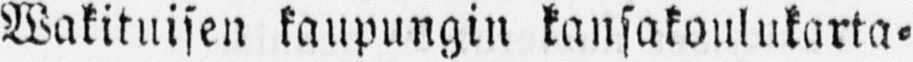Wakituisen kaupungin kansakoulukarta-
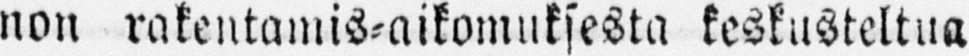non rakentamis-aikomuksesta keskusteltua
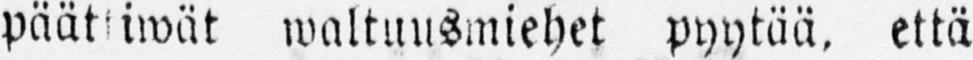päättiwät waltuusmiehet pyytää, että
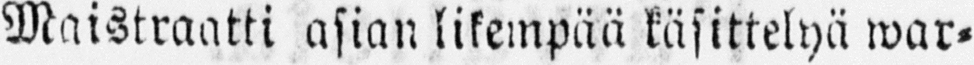Maistraatti asian likempää käsittelyä war-
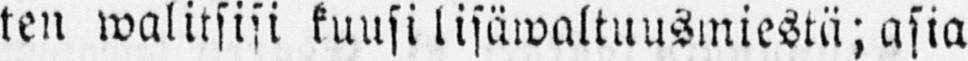ten walitsisi kuusi lisäwaltuusmiestä; asia
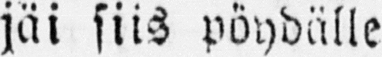jäi siis pöydälle.
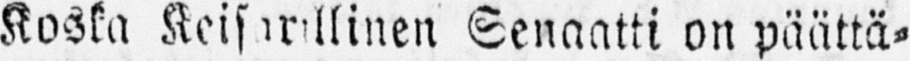Koska Keisarillinen Senaatti on päättä-
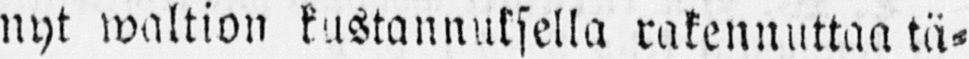nyt waltion kustannuksella rakennuttaa tä-
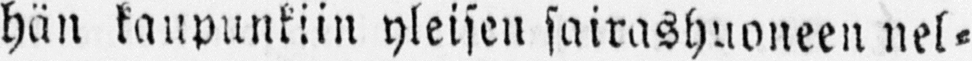hän kaupunkiin yleisen sairashuoneen nel-
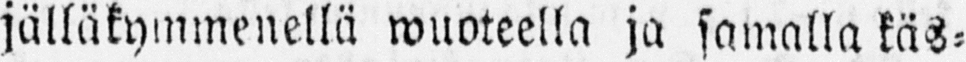jälläkymmenellä wuoteella ja samalla käs-
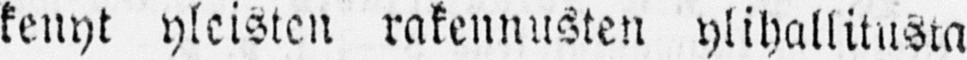kenyt yleisten rakennusten ylihallitusta
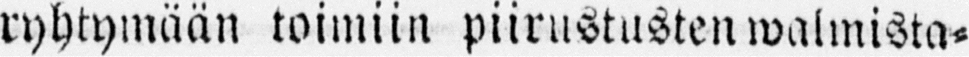ryhtymään toimiin piirustusten walmista-
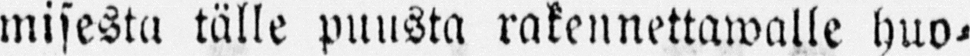misesta tälle puusta rakennettawalle huo-
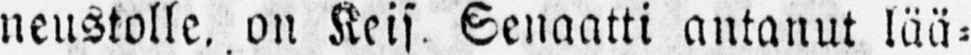neustolle, on Keis. Senaatti antanut lää-
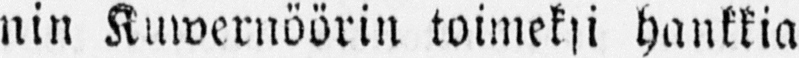nin Kuwernöörin toimeksi hankkia Walti-
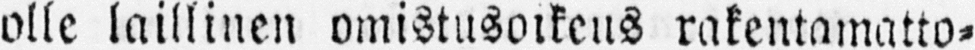olle laillinen omistusoikeus rakentamatto-
